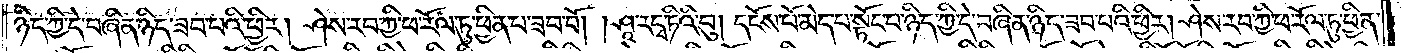ཉིད་ཀྱི་དེ་བཞིན་ཉིད་ཟབ་པའི་ཕྱིར། ཤེས་རབ་ཀྱི་ཕ་རོལ་ཏུ་ཕྱིན་པ་ཟབ་བོ། །ཤཱ་རདྭ་ཏིའི་བུ། དངོས་པོ་མེད་པ་སྟོང་པ་ཉིད་ཀྱི་དེ་བཞིན་ཉིད་ཟབ་པའི་ཕྱིར། ཤེས་རབ་ཀྱི་ཕ་རོལ་ཏུ་ཕྱིན་
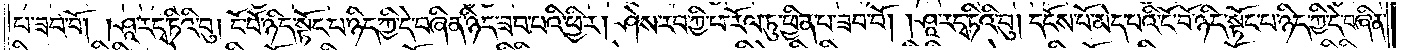པ་ཟབ་བོ། །ཤཱ་རདྭ་ཏིའི་བུ། ངོ་བོ་ཉིད་སྟོང་པ་ཉིད་ཀྱི་དེ་བཞིན་ཉིད་ཟབ་པའི་ཕྱིར། ཤེས་རབ་ཀྱི་ཕ་རོལ་ཏུ་ཕྱིན་པ་ཟབ་བོ། །ཤཱ་རདྭ་ཏིའི་བུ། དངོས་པོ་མེད་པའི་ངོ་བོ་ཉིད་སྟོང་པ་ཉིད་ཀྱི་དེ་བཞིན་
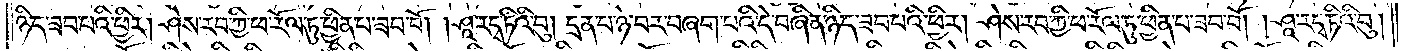ཉིད་ཟབ་པའི་ཕྱིར། ཤེས་རབ་ཀྱི་ཕ་རོལ་ཏུ་ཕྱིན་པ་ཟབ་བོ། །ཤཱ་རདྭ་ཏིའི་བུ། དྲན་པ་ཉེ་བར་བཞག་པའི་དེ་བཞིན་ཉིད་ཟབ་པའི་ཕྱིར། ཤེས་རབ་ཀྱི་ཕ་རོལ་ཏུ་ཕྱིན་པ་ཟབ་བོ། །ཤཱ་རདྭ་ཏིའི་བུ།
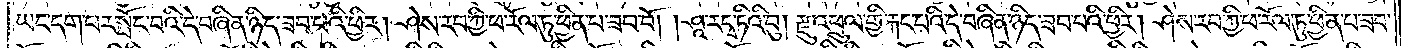ཡང་དག་པར་སྤོང་བའི་དེ་བཞིན་ཉིད་ཟབ་པའི་ཕྱིར། ཤེས་རབ་ཀྱི་ཕ་རོལ་ཏུ་ཕྱིན་པ་ཟབ་བོ། །ཤཱ་རདྭ་ཏིའི་བུ། རྫུ་འཕྲུལ་གྱི་རྐང་པའི་དེ་བཞིན་ཉིད་ཟབ་པའི་ཕྱིར། ཤེས་རབ་ཀྱི་ཕ་རོལ་ཏུ་ཕྱིན་པ་ཟབ་
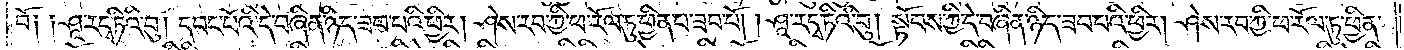བོ༑ ༑ཤཱ་རདྭ་ཏིའི་བུ། དབང་པོའི་དེ་བཞིན་ཉིད་ཟབ་པའི་ཕྱིར། ཤེས་རབ་ཀྱི་ཕ་རོལ་ཏུ་ཕྱིན་པ་ཟབ་བོ། །ཤཱ་རདྭ་ཏིའི་བུ། སྟོབས་ཀྱི་དེ་བཞིན་ཉིད་ཟབ་པའི་ཕྱིར། ཤེས་རབ་ཀྱི་ཕ་རོལ་ཏུ་ཕྱིན་
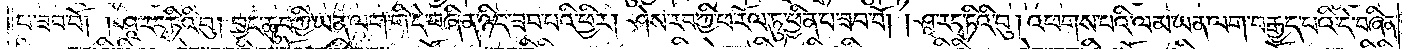པ་ཟབ་བོ། །ཤཱ་རདྭ་ཏིའི་བུ། བྱང་ཆུབ་ཀྱི་ཡན་ལག་གི་དེ་བཞིན་ཉིད་ཟབ་པའི་ཕྱིར། ཤེས་རབ་ཀྱི་ཕ་རོལ་ཏུ་ཕྱིན་པ་ཟབ་བོ། །ཤཱ་རདྭ་ཏིའི་བུ། འཕགས་པའི་ལམ་ཡན་ལག་བརྒྱད་པའི་དེ་བཞིན་
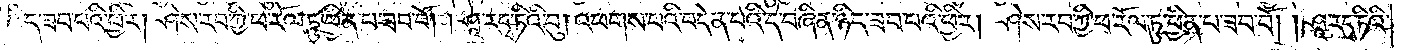ཉིད་ཟབ་པའི་ཕྱིར། ཤེས་རབ་ཀྱི་ཕ་རོལ་ཏུ་ཕྱིན་པ་ཟབ་བོ། །ཤཱ་རདྭ་ཏིའི་བུ། འཕགས་པའི་བདེན་པའི་དེ་བཞིན་ཉིད་ཟབ་པའི་ཕྱིར། ཤེས་རབ་ཀྱི་ཕ་རོལ་ཏུ་ཕྱིན་པ་ཟབ་བོ། །ཤཱ་རདྭ་ཏིའི་
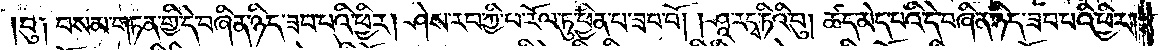བུ༑ བསམ་གཏན་གྱི་དེ་བཞིན་ཉིད་ཟབ་པའི་ཕྱིར། ཤེས་རབ་ཀྱི་ཕ་རོལ་ཏུ་ཕྱིན་པ་ཟབ་བོ། །ཤཱ་རདྭ་ཏིའི་བུ། ཚད་མེད་པའི་དེ་བཞིན་ཉིད་ཟབ་པའི་ཕྱིར།
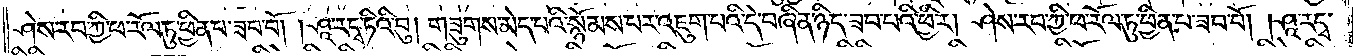ཤེས་རབ་ཀྱི་ཕ་རོལ་ཏུ་ཕྱིན་པ་ཟབ་བོ། །ཤཱ་རདྭ་ཏིའི་བུ། གཟུགས་མེད་པའི་སྙོམས་པར་འཇུག་པའི་དེ་བཞིན་ཉིད་ཟབ་པའི་ཕྱིར། ཤེས་རབ་ཀྱི་ཕ་རོལ་ཏུ་ཕྱིན་པ་ཟབ་བོ། །ཤཱ་རདྭ་
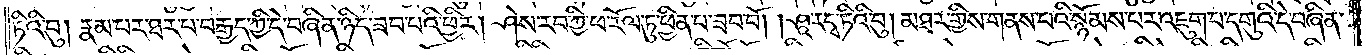ཏིའི་བུ། རྣམ་པར་ཐར་པ་བརྒྱད་ཀྱི་དེ་བཞིན་ཉིད་ཟབ་པའི་ཕྱིར། ཤེས་རབ་ཀྱི་ཕ་རོལ་ཏུ་ཕྱིན་པ་ཟབ་བོ། །ཤཱ་རདྭ་ཏིའི་བུ། མཐར་གྱིས་གནས་པའི་སྙོམས་པར་འཇུག་པ་དགུའི་དེ་བཞིན་
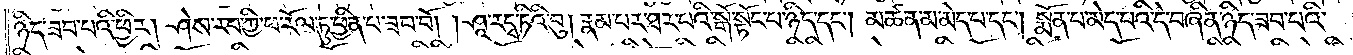ཉིད་ཟབ་པའི་ཕྱིར། ཤེས་རབ་ཀྱི་ཕ་རོལ་ཏུ་ཕྱིན་པ་ཟབ་བོ། །ཤཱ་རདྭ་ཏིའི་བུ། རྣམ་པར་ཐར་པའི་སྒོ་སྟོང་པ་ཉིད་དང༌། མཚན་མ་མེད་པ་དང༌། སྨོན་པ་མེད་པའི་དེ་བཞིན་ཉིད་ཟབ་པའི་
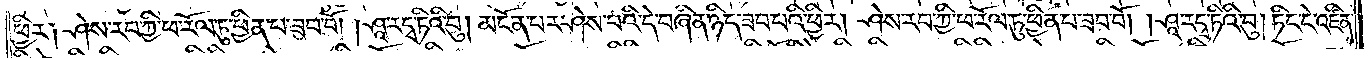ཕྱིར༑ ཤེས་རབ་ཀྱི་ཕ་རོལ་ཏུ་ཕྱིན་པ་ཟབ་བོ། །ཤཱ་རདྭ་ཏིའི་བུ། མངོན་པར་ཤེས་པའི་དེ་བཞིན་ཉིད་ཟབ་པའི་ཕྱིར། ཤེས་རབ་ཀྱི་ཕ་རོལ་ཏུ་ཕྱིན་པ་ཟབ་བོ། །ཤཱ་རདྭ་ཏིའི་བུ། ཏིང་ངེ་འཛིན་
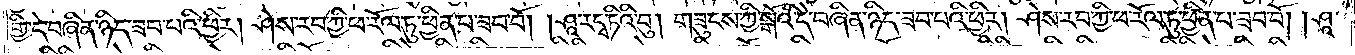གྱི་དེ་བཞིན་ཉིད་ཟབ་པའི་ཕྱིར། ཤེས་རབ་ཀྱི་ཕ་རོལ་ཏུ་ཕྱིན་པ་ཟབ་བོ། །ཤཱ་རདྭ་ཏིའི་བུ། གཟུངས་ཀྱི་སྒོའི་དེ་བཞིན་ཉིད་ཟབ་པའི་ཕྱིར། ཤེས་རབ་ཀྱི་ཕ་རོལ་ཏུ་ཕྱིན་པ་ཟབ་བོ། །ཤཱ་
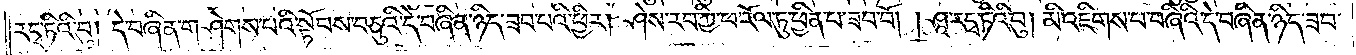རདྭ་ཏིའི་བུ། དེ་བཞིན་གཤེགས་པའི་སྟོབས་བཅུའི་དེ་བཞིན་ཉིད་ཟབ་པའི་ཕྱིར། ཤེས་རབ་ཀྱི་ཕ་རོལ་ཏུ་ཕྱིན་པ་ཟབ་བོ། །ཤཱ་རདྭ་ཏིའི་བུ། མི་འཇིགས་པ་བཞིའི་དེ་བཞིན་ཉིད་ཟབ་
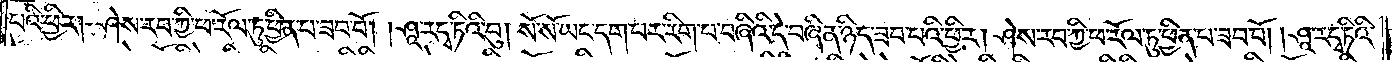པའི་ཕྱིར། ཤེས་རབ་ཀྱི་ཕ་རོལ་ཏུ་ཕྱིན་པ་ཟབ་བོ། །ཤཱ་རདྭ་ཏིའི་བུ། སོ་སོ་ཡང་དག་པར་རིག་པ་བཞིའི་དེ་བཞིན་ཉིད་ཟབ་པའི་ཕྱིར། ཤེས་རབ་ཀྱི་ཕ་རོལ་ཏུ་ཕྱིན་པ་ཟབ་བོ། །ཤཱ་རདྭ་ཏིའི་
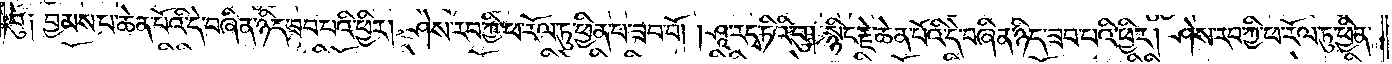བུ༑ བྱམས་པ་ཆེན་པོའི་དེ་བཞིན་ཉིད་ཟབ་པའི་ཕྱིར། ཤེས་རབ་ཀྱི་ཕ་རོལ་ཏུ་ཕྱིན་པ་ཟབ་བོ། །ཤཱ་རདྭ་ཏིའི་བུ། སྙིང་རྗེ་ཆེན་པོའི་དེ་བཞིན་ཉིད་ཟབ་པའི་ཕྱིར། ཤེས་རབ་ཀྱི་ཕ་རོལ་ཏུ་ཕྱིན་
